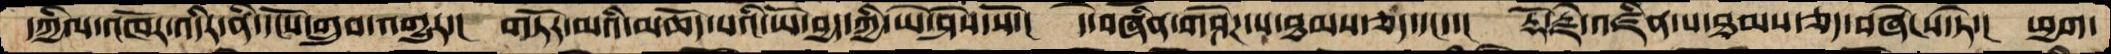དཀྱིལ་འཁོར་འདིར་ནི་དངོས་གྲུབ་འགྱུར་།   གཏོར་མའི་མཆོད་པའི་ཡོ་བྱད་ཀྱི་ཡེ་ཤེས་སོ་།  དེ་བཞིན་གཤེགས་པ་ཐམས་ཅད་དང་་།  རྡོ་རྗེ་འཛིན་པ་ཐམས་ཅད་བཞེངས་ཏེ་།  ཕྱག་
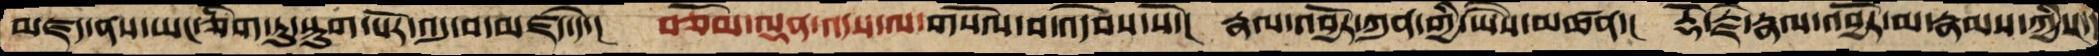མཛད་ནས་ཡང་ཅིག་ཏུ་སྟུག་པོར་འདུ་བ་མཛད་དེ་།  བཅོམ་ལྡན་འདས་ལ་གསོལ་བ་འདེབས་སོ་།  རྣལ་འབྱོར་ཀུན་གྱི་ཡཻས་མཚན་།  རྡོ་རྗེ་རྣལ་འབྱོར་མ་རྣམས་ཀྱིས་
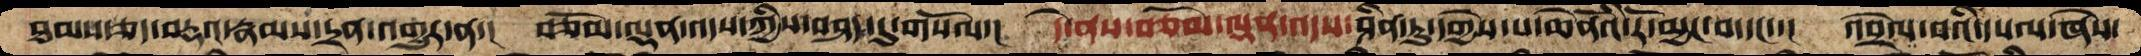ཐམས་ཅད་བརྡའ་རྣམས་དྲན་འགྱུར་ན་།  བཅོམ་ལྡན་འདས་ཀྱིས་བཤད་དུ་གསོལ་།  དེ་ནས་བཅོམ་ལྡན་འདས་ཤིན་ཏུ་དགྱེས་པ་ཆེནོའི་རོ་མྱང་བ་དང་་།  འབྲེལ་བའི་དཔལ་ཞེས་
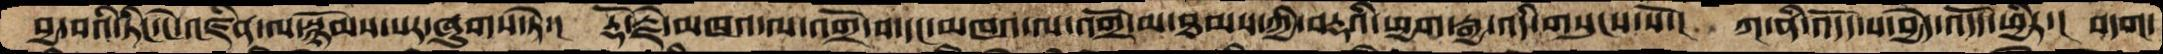བྱ་བའི་ཏིང་ངེ་འཛིན་ལ་སྙོམས་པར་ཞུགས་ཏེ་།  རྡོ་རྗེ་མཁའ་ལ་འགྲོ་བ་དང་མཁའ་ལ་འགྲོ་མ་ཐམས་ཀྱི་བརྡའི་ཕྱག་རྒྱ་འདི་གསུངས་སོ་།  ཀ་ནི་འདོད་པ་བྱེད་འདོད་ཕྱིར་།  བདག་
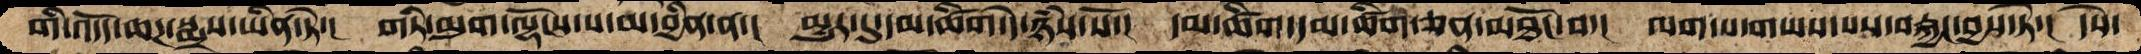གི་འདོད་ཆཌ་སྨྲས་་ཡིན་ཏེ་།  གཏི་མུག་ལྷོངས་པ་མ་བྱིན་ན་།  མྱུར་དུ་དམ་ཚིག་དེ་ཉཾས་སོ་།  དམ་ཚིག་དམ་ཚིག་ཅན་མཐོང་བ་།  ལག་པ་གཡས་པས་བརྐྱང་བྱས་ཏེ་།  དེས་
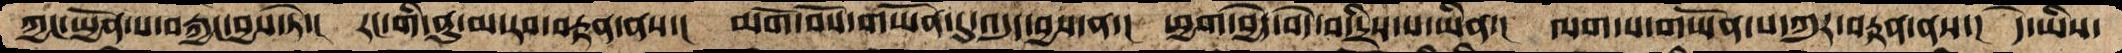ཀྱང་སྤྱོན་པ་བརྐྱང་བྱས་ཏེ་།  རང་གི་ནུ་མ་རབ་བརྟན་ནས་།  མགོ་བསོ་གཡོན་དུ་འདུད་བྱས་ན་།  ཕྱག་བྱེད་བདེ་བ་དྲིས་པ་ཡིན་།  ལག་པ་གཡོན་པ་ཀུར་བརྟན་ནས་།  དེ་ཡིས་
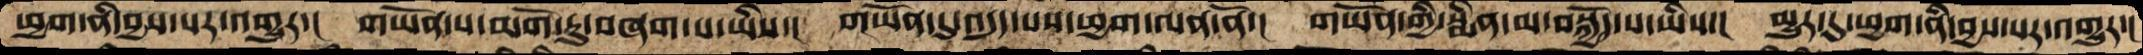ཕྱག་ནི་བྱས་པར་འགྱུར་།  གཡོན་པ་མགོ་རུ་བཞག་པ་ཡིས་།  གཡོན་དུ་འདུད་པས་ཕྱག་ལན་ནོ་།  གཡོན་གྱི་སྨིན་མ་བསྐྱོད་པ་ཡིས་།  མྱུར་དུ་ཕྱག་ནི་བྱས་པར་འགྱུར་
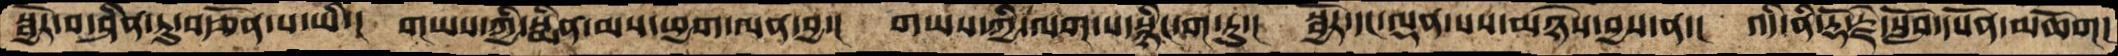སྦྱོར་བ་ཤིན་ཏུ་བརྩོན་པ་ཡི་།  གཡས་ཀྱི་སྨིན་མས་ཕྱག་ལན་བྱ་།   གཡས་ཀྱི་ལག་པ་སྙིང་ག་རུ་།  སྦྱོར་དང་ལྡན་པས་མཉེས་བྱས་ན་།  འདི་ནི་རྡོ་རྗེ་སློབ་དཔོན་མཆོག།
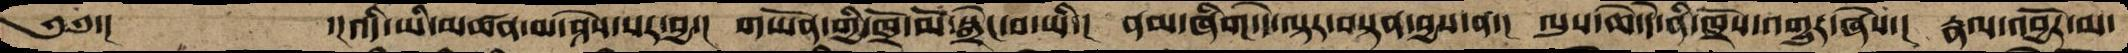༄༅་།        ་།འདི་ཡི་མཚན་མ་ཤེས་པར་བྱ་།  གཡོན་གྱི་ཁྲོ་མོ་སྒྲེང་བ་ཡི་།  ནམ་ཞིག་དེ་ལྟར་བསྟན་བྱས་ན་།  ལུས་ཆེ་དེ་ནི་ཁྲོས་འགྱུར་ཞེས་།  རྣལ་འབྱོར་མ་
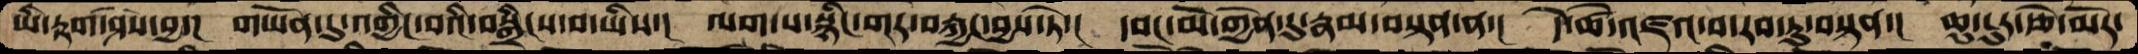ཡི་རྟག་ཤེས་བྱ་།   གཡོན་དུ་འགྱིང་བའི་བསྒྲིངས་བ་ཡིས་།  ལག་པ་སྙིང་གར་བརྐྱང་བྱས་ཏེ་།  དབང་མོ་གྱེན་དུ་རྣམ་བསྟན་ན་།  དེ་ཚེ་འཛའ་བ་རབ་ཏུ་བསྟན་།  ཆུ་ངུར་རྩེ་མོར་
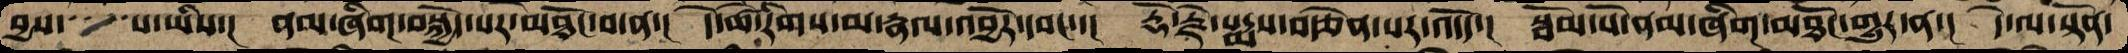བྱས་   པ་ཡིས་།   ནམ་ཞིག་བསྐྱོད་པར་མཐོང་བ་ན་།   དེ་ཚེ་རིགས་མ་རྣལ་འབྱོར་དབང་་།  རྡོ་རྗེ་པདྨས་བརྩེན་པར་འདོད་།  སྦོམ་པོ་ནམ་ཞིག་མཐོང་གྱུར་ན་།  དེ་ལ་སྟོན་
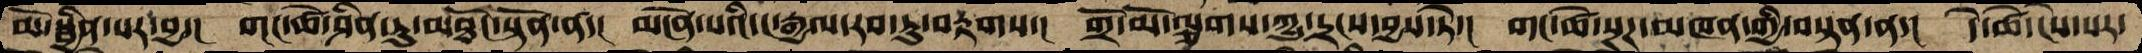མོ་སྦྱིན་པར་བྱ་།   གང་ཚེ་ཤིན་ཏུ་མཐོང་སྟོན་ན་།   མངོན་པའི་ང་རྒྱལ་རབ་ཏུ་བརྟགས་།   གྲོ་མོ་ལྕགས་ཀྱུ་དྲངས་བྱས་ཏེ་།  གང་ཚེ་སྔཌ་མཁན་གྱི་བསྟན་ན་།  དེ་ཚེ་ངེས་པར་
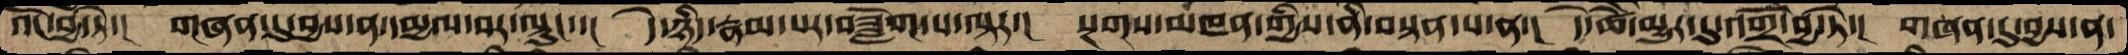འོང་བྱ་ཏེ་།    གཞན་དུ་བྱས་ན་དམྱལ་བར་ལྟུང་་།   དེ་ཉིད་རྣམ་པར་བཟློག་པ་ལྟར་།   སྔགས་མཁན་གྱིས་ནི་བསྟན་པ་ན་།  དེ་ཚེ་མྱུར་དུ་འགྲོ་བྱ་ཏེ་།  གཞན་དུ་བྱས་ན་
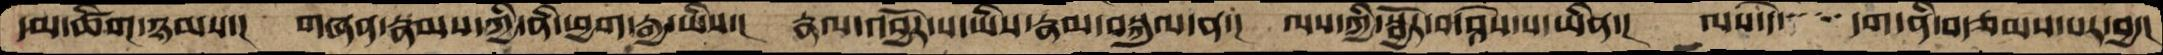དམ་ཚིག་ཉམས་།   གཞན་རྣམས་ཀྱི་ནི་ཕྱག་རྒྱ་ཡིས་།   རྣལ་འབྱོར་པ་ཡིས་རྣམ་བསྐུལ་ན་།   ལས་ཀྱི་སྦྱོར་བ་ཤེས་པ་ཡིན་།  ལས་དེ་  དག་ནི་བརྩམས་པར་བྱ་།
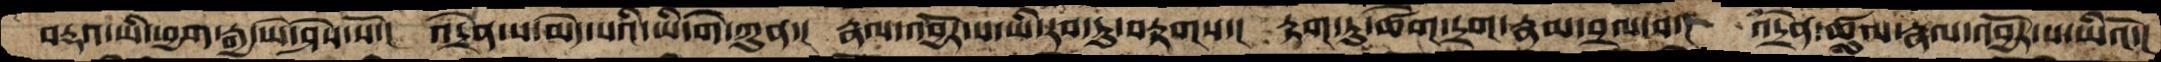བརྡའ་ཡི་ཕྱག་རྒྱ་ཡེ་ཤེས་སོ་།  འདྲེན་པ་མེད་པའི་ཡི་གེ་ཀུན་།  རྣལ་འབྱོར་པ་ཡི་རབ་ཏུ་བརྟགས་།  རྟག་ཏུ་ཚེག་དྲག་རྣམ་བྲལ་བ་།  འདྲེན་ཚུལ་རྣལ་འབྱོར་པ་ཡིའོ་།
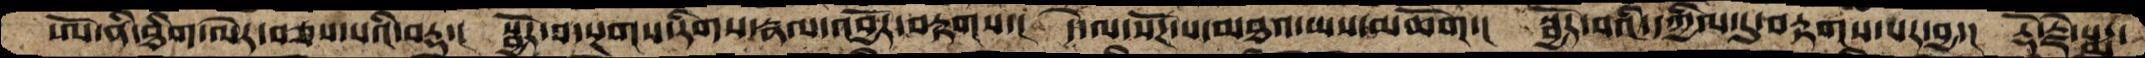ཨོ་ནི་ཐིག་ལེར་བཅས་པའི་བརྡ་།   སྦྱོར་བ་སྔགས་རིགས་རྣལ་འབྱོར་བརྟགས་།   དེ་ལ་སོཌ་པ་མཐའ་ཡས་མཆོག་།  སྦྱོར་བའི་དཀྱིལ་དུ་བརྟགས་པར་བྱ་།  རྡོ་རྗེ་པདྨ་
